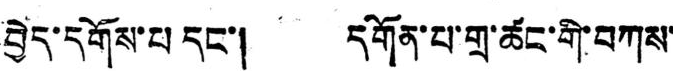བྱེད་དགོས་པ དང་། དགོན་པ་གྲ་ཚང་གི་བཀས་
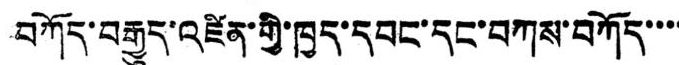བཀོད་བརྒྱུད་འཛིན་གྱི་ཁྱད་དབང་དང་བཀས་བཀོད་་་་
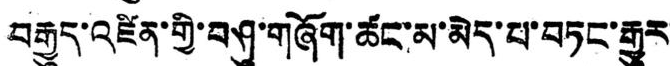བརྒྱུད་འཛིན་གྱི་བཤུ་གཞོག་ཚང་མ་མེད་པ་བཏང་རྒྱུར་
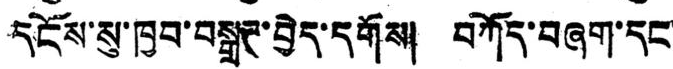དངོས་སུ་ཁྱབ་བསྒྲཊ་བྱེད་དགོས། བཀོད་བཞག་དང་
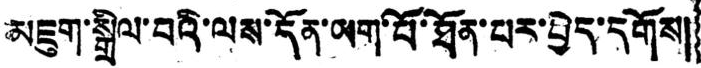མཇུག་སྒྲིལ་བའི་ལས་དོན་ཡག་པོ་ཐོན་པར་བྱེད་དགོས།
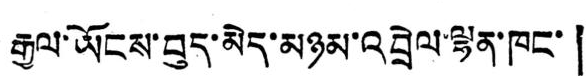རྒྱལ་ཡོངས་བུད་མེད་མཉམ་འབྲེལ་ལྷན་ཁང་
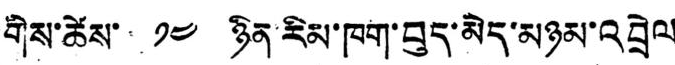གིས་ཚེས་ ༡༤ ཉིན་རིམ་ཁག་བུད་མེད་མཉམ་འབྲེལ
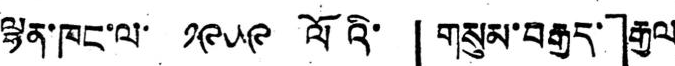ལྷན་ཁང་ལ་ ༡༩༥༩ ལོའི་ 「གསུམ་བརྒྱད་」རྒྱལ
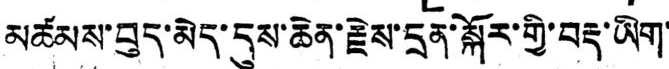མཚམས་བུད་མེད་དུས་ཆེན་རྗེས་དྲན་སྐོར་གྱི་བརྡ་ཡིག་་
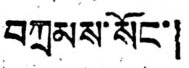བཀྲམས་སོང་།
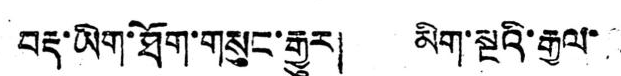བརྡ་ཡིག་ཐོག་གསུང་རྒྱུར། མིག་སྔའི་རྒྱལ་
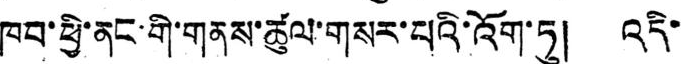ཁབ་ཕྱི་ནང་གི་གནས་ཚུལ་གསར་པའི་འོག་ཏུ། འདི་
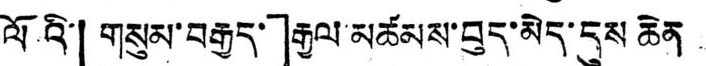ལོའི་「གསུམ་བརྒྱད་」རྒྱལ་མཚམས་བུད་མེད་དུས ཆེན
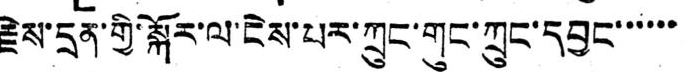རྗེས་དྲན་གྱི་སྐོར་ལ་ངེས་པར་ཀྲུང་གུང་ཀྲུང་དབྱང་་་་་་
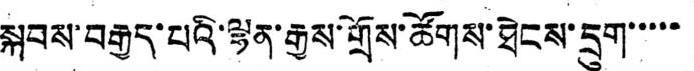སྐབས་བརྒྱད་པའི་ལྷན་རྒྱས་གྲོས་ཚོགས་ཐེངས་དྲུག་་་་་
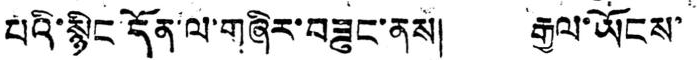པའི་སྙིང་དོན་ལ་གཞིར་བཟུང་ནས། རྒྱལ་ཡོངས་
